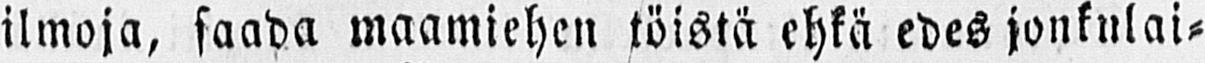ilmoja, saada maamiehen töistä ehkä edes jonkulai-
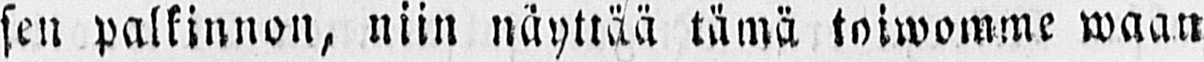sen palkinnon, niin näyttää tämä toiwomme waan
